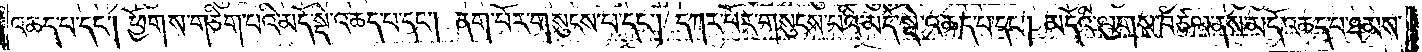འཆད་པ་དང༌། ཕྱོགས་གཅིག་པའི་མདོ་སྡེ་འཆད་པ་དང༌། ནག་པོར་གསུངས་པ་དང༌། དཀར་པོར་གསུངས་པའི་མདོ་སྡེ་འཆད་པ་དང༌། མདོའི་ལུགས་བཙལ་ནས་མདོ་འཆད་པ་ཐམས་
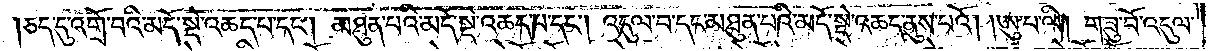ཅད་དུ་འགྲོ་བའི་མདོ་སྡེ་འཆད་པ་དང༌། མཐུན་པའི་མདོ་སྡེ་འཆད་པ་དང༌། འདུལ་བ་དང་མཐུན་པའི་མདོ་སྡེ་འཆད་ནུས་པའོ། །ཨུ་པ་ལི། གཟུ་བོ་འདུལ་
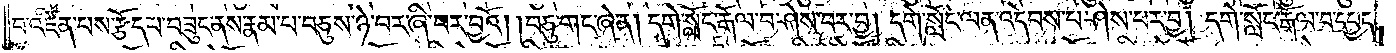བ་འཛིན་པས་རྩོད་པ་བཟུང་ནས་རྣམ་པ་བཅུས་ཉེ་བར་ཞི་བར་བྱའོ། །བཅུ་གང་ཞེ་ན། དགེ་སློང་རྒོལ་བ་ཤེས་པར་བྱ། དགེ་སློང་ལན་འདེབས་པ་ཤེས་པར་བྱ། དགེ་སློང་རྒོལ་བ་དཔྱད་
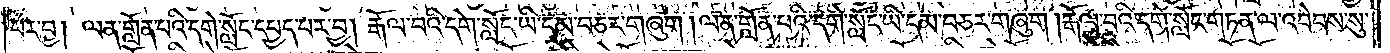པར་བྱ། ལན་གློན་པའི་དགེ་སློང་དཔྱད་པར་བྱ། རྒོལ་བའི་དགེ་སློང་ཡི་དམ་བཅར་གཞུག །ལན་གློན་པའི་དགེ་སློང་ཡི་དམ་བཅར་གཞུག །རྒོལ་བའི་དགེ་སློང་གཏན་ལ་འབེབས་སུ་
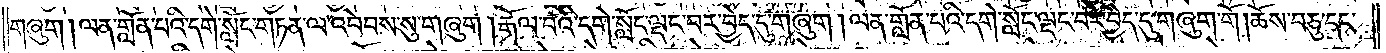གཞུག །ལན་གློན་པའི་དགེ་སློང་གཏན་ལ་འབེབས་སུ་གཞུག །རྒོལ་བའི་དགེ་སློང་ལྡང་བར་བྱེད་དུ་གཞུག །ལན་གློན་པའི་དགེ་སློང་ལྡང་བར་བྱེད་དུ་གཞུག་གོ །ཆོས་བཅུ་དང་
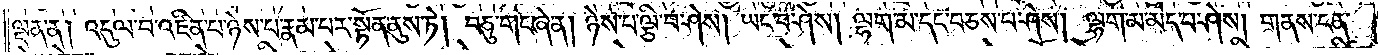ལྡན་ན། འདུལ་བ་འཛིན་པ་ཉེས་པ་རྣམ་པར་སྟོན་ནུས་ཏེ། བཅུ་གང་ཞེ་ན། ཉེས་པ་ལྕི་བ་ཤེས། ཡང་བ་ཤེས། ལྷག་མ་དང་བཅས་པ་ཤེས། ལྷག་མ་མེད་པ་ཤེས། གནས་ངན་
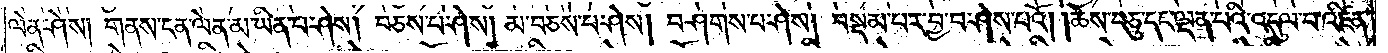ལེན་ཤེས། གནས་ངན་ལེན་མ་ཡིན་པ་ཤེས། བཅས་པ་ཤེས། མ་བཅས་པ་ཤེས། བཤགས་པ་ཤེས། བསྡམ་པར་བྱ་བ་ཤེས་པའོ། །ཆོས་བཅུ་དང་ལྡན་པའི་འདུལ་བ་འཛིན་
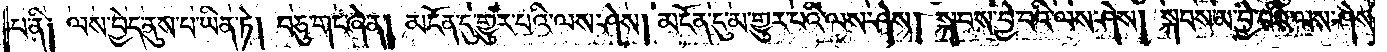པ་ནི༑ ལས་བྱེད་ནུས་པ་ཡིན་ཏེ། བཅུ་གང་ཞེ་ན། མངོན་དུ་གྱུར་པའི་ལས་ཤེས། མངོན་དུ་མ་གྱུར་པའི་ལས་ཤེས། སྐབས་བྱེ་བའི་ལས་ཤེས། སྐབས་མ་བྱེ་བའི་ལས་ཤེས་
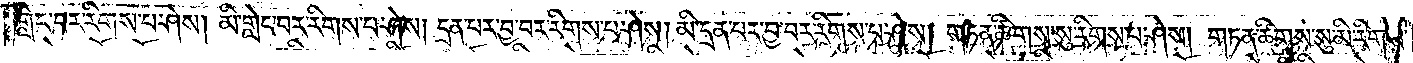གླེང་བར་རིགས་པ་ཤེས། མི་གླེང་བར་རིགས་པ་ཤེས། དྲན་པར་བྱ་བར་རིགས་པ་ཤེས། མི་དྲན་པར་བྱ་བར་རིགས་པ་ཤེས། གཏན་ཚིགས་སུ་རིགས་པ་ཤེས། གཏན་ཚིགས་སུ་མི་རིགས་
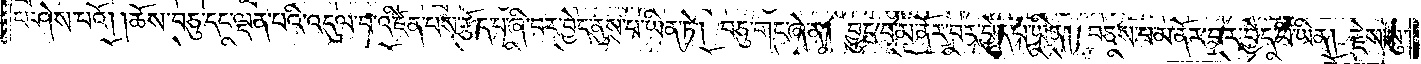པ་ཤེས་པའོ། །ཆོས་བཅུ་དང་ལྡན་པའི་འདུལ་བ་འཛིན་པས་རྩོད་པ་ཞི་བར་བྱེད་ནུས་པ་ཡིན་ཏེ། བཅུ་གང་ཞེ་ན། བྱུང་བ་མ་ནོར་བར་བྱེད་པ་ཡིན། བཅས་པ་མ་ནོར་བར་བྱེད་པ་ཡིན། རྗེས་སུ་
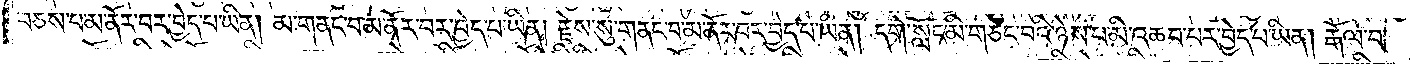བཅས་པ་མ་ནོར་བར་བྱེད་པ་ཡིན། མ་གནང་བ་མ་ནོར་བར་བྱེད་པ་ཡིན། རྗེས་སུ་གནང་བ་མ་ནོར་བར་བྱེད་པ་ཡིན། དགེ་སློང་མི་གཙང་བའི་ཉེས་པ་མི་འཆབ་པར་བྱེད་པ་ཡིན། རྒོལ་བ་
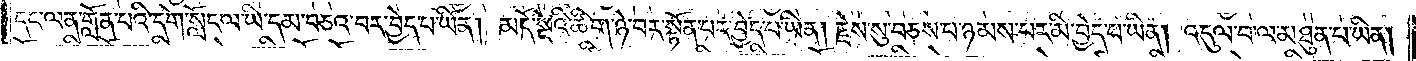དང་ལན་གློན་པའི་དགེ་སློང་ལ་ཡི་དམ་བཅའ་བར་བྱེད་པ་ཡིན། མདོ་སྡེའི་ཚིག་ཉེ་བར་སྟོན་པར་བྱེད་པ་ཡིན། རྗེས་སུ་བཅས་པ་ཉམས་པར་མི་བྱེད་པ་ཡིན། འདུལ་བ་ལ་མཐུན་པ་ཡིན།
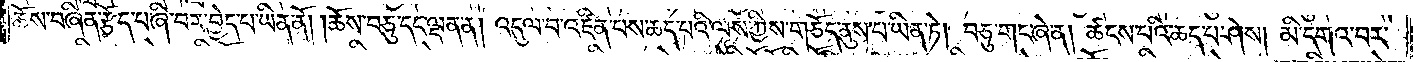ཆོས་བཞིན་རྩོད་པ་ཞི་བར་བྱེད་པ་ཡིན་ནོ། །ཆོས་བཅུ་དང་ལྡན་ན། འདུལ་བ་འཛིན་པས་ཆད་པའི་ལས་ཀྱིས་གཅོད་ནུས་པ་ཡིན་ཏེ། བཅུ་གང་ཞེ་ན། ཚངས་པའི་ཆད་པ་ཤེས། མི་དགའ་བར་
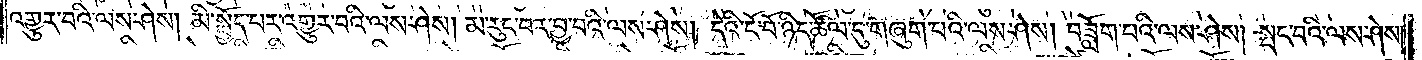འགྱུར་བའི་ལས་ཤེས། མི་སྤྱོད་པར་འགྱུར་བའི་ལས་ཤེས། མ་རུང་བར་བྱ་བའི་ལས་ཤེས། དེའི་ངོ་བོ་ཉིད་ཚོལ་དུ་གཞུག་པའི་ལས་ཤེས། བཟློག་པའི་ལས་ཤེས། སྤང་བའི་ལས་ཤེས།
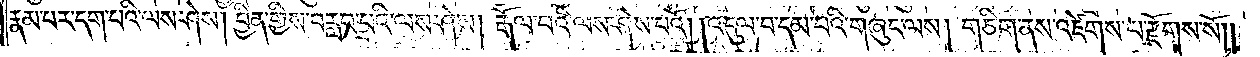རྣམ་པར་དག་པའི་ལས་ཤེས། བྱིན་གྱིས་བརླབ་པའི་ལས་ཤེས། རྒོལ་བའི་ལས་ཤེས་པའོ། །འདུལ་བ་དམ་པའི་གཞུང་ལས། གཅིག་ནས་འཛེགས་པ་རྫོགས་སོ༎
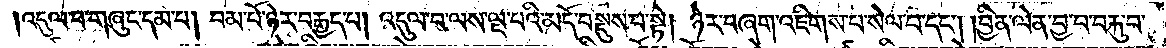འདུལ་བ་གཞུང་དམ་པ། བམ་པོ་ཉེར་བརྒྱད་པ། འདུལ་བ་ལས་ལྔ་པའི་མདོ་བསྡུས་པ་སྟེ། ཉེར་བཞག་འཇིགས་པ་སེལ་པ་དང༌། །བྱིན་ལེན་བྱ་བ་བརྐུ་བ་
